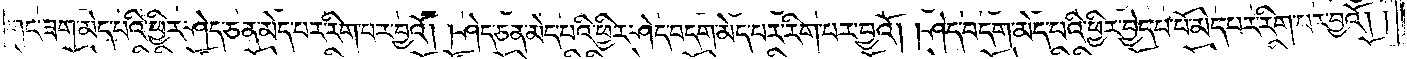གང་ཟག་མེད་པའི་ཕྱིར་ཤེད་ཅན་མེད་པར་རིག་པར་བྱའོ། །ཤེད་ཅན་མེད་པའི་ཕྱིར་ཤེད་བདག་མེད་པར་རིག་པར་བྱའོ། །ཤེད་བདག་མེད་པའི་ཕྱིར་བྱེད་པ་པོ་མེད་པར་རིག་པར་བྱའོ། །
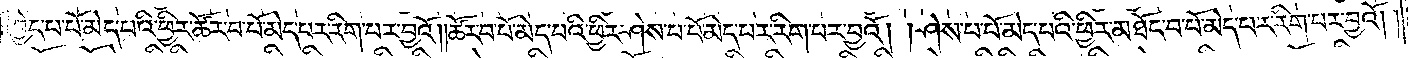བྱེད་པ་པོ་མེད་པའི་ཕྱིར་ཚོར་བ་པོ་མེད་པར་རིག་པར་བྱའོ། །ཚོར་བ་པོ་མེད་པའི་ཕྱིར་ཤེས་པ་པོ་མེད་པར་རིག་པར་བྱའོ། །ཤེས་པ་པོ་མེད་པའི་ཕྱིར་མཐོང་བ་པོ་མེད་པར་རིག་པར་བྱའོ། །
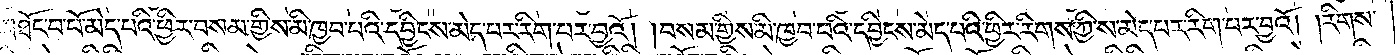མཐོང་བ་པོ་མེད་པའི་ཕྱིར་བསམ་གྱིས་མི་ཁྱབ་པའི་དབྱིངས་མེད་པར་རིག་པར་བྱའོ། །བསམ་གྱིས་མི་ཁྱབ་པའི་དབྱིངས་མེད་པའི་ཕྱིར་རིགས་ཀྱི་ས་མེད་པར་རིག་པར་བྱའོ། །རིགས་
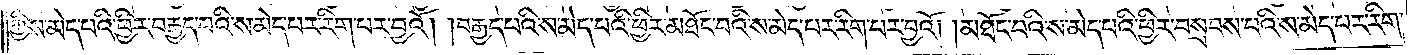ཀྱི་ས་མེད་པའི་ཕྱིར་བརྒྱད་པའི་ས་མེད་པར་རིག་པར་བྱའོ། །བརྒྱད་པའི་ས་མེད་པའི་ཕྱིར་མཐོང་བའི་ས་མེད་པར་རིག་པར་བྱའོ། །མཐོང་བའི་ས་མེད་པའི་ཕྱིར་བསྲབས་པའི་ས་མེད་པར་རིག་
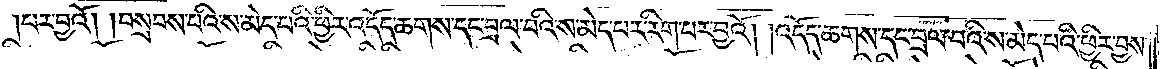པར་བྱའོ། །བསྲབས་པའི་ས་མེད་པའི་ཕྱིར་འདོད་ཆགས་དང་བྲལ་བའི་ས་མེད་པར་རིག་པར་བྱའོ། །འདོད་ཆགས་དང་བྲལ་བའི་ས་མེད་པའི་ཕྱིར་བྱས་
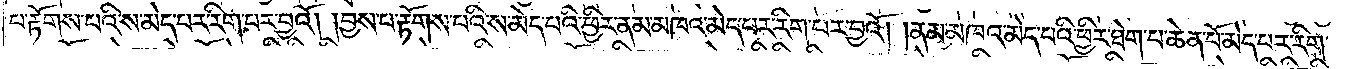པ་རྟོགས་པའི་ས་མེད་པར་རིག་པར་བྱའོ། །བྱས་པ་རྟོགས་པའི་ས་མེད་པའི་ཕྱིར་ནམ་མཁའ་མེད་པར་རིག་པར་བྱའོ། །ནམ་མཁའ་མེད་པའི་ཕྱིར་ཐེག་པ་ཆེན་པོ་མེད་པར་རིག་
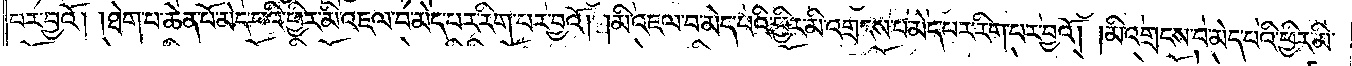པར་བྱའོ། །ཐེག་པ་ཆེན་པོ་མེད་པའི་ཕྱིར་མི་འཇལ་བ་མེད་པར་རིག་པར་བྱའོ། །མི་འཇལ་བ་མེད་པའི་ཕྱིར་མི་འགྲངས་པ་མེད་པར་རིག་པར་བྱའོ། །མི་འགྲངས་པ་མེད་པའི་ཕྱིར་མི་
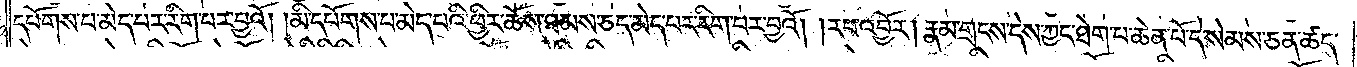དཔོགས་པ་མེད་པར་རིག་པར་བྱའོ། །མི་དཔོགས་པ་མེད་པའི་ཕྱིར་ཆོས་ཐམས་ཅད་མེད་པར་རིག་པར་བྱའོ། །རབ་འབྱོར། རྣམ་གྲངས་དེས་ཀྱང་ཐེག་པ་ཆེན་པོ་དེ་སེམས་ཅན་ཚད་
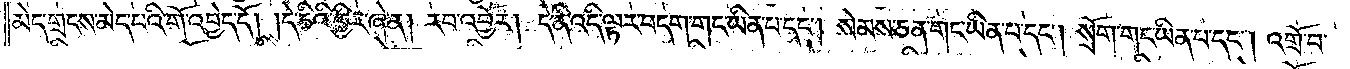མེད་གྲངས་མེད་པའི་གོ་འབྱེད་དོ། །དེ་ཅིའི་ཕྱིར་ཞེ་ན། རབ་འབྱོར། དེ་ནི་འདི་ལྟར་བདག་གང་ཡིན་པ་དང༌། སེམས་ཅན་གང་ཡིན་པ་དང༌། སྲེག་གང་ཡིན་པ་དང༌། འགྲོ་བ་
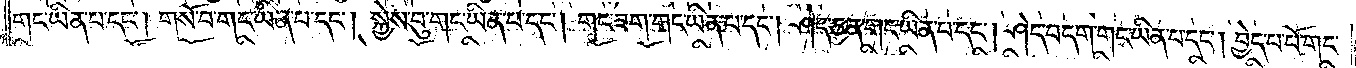གང་ཡིན་པ་དང༌། གསོ་བ་གང་ཡིན་པ་དང༌། སྐྱེས་བུ་གང་ཡིན་པ་དང༌། གང་ཟག་གང་ཡིན་པ་དང༌། ཤེད་ཅན་གང་ཡིན་པ་དང༌། ཤེད་བདག་གང་ཡིན་པ་དང༌། བྱེད་པ་པོ་གང་
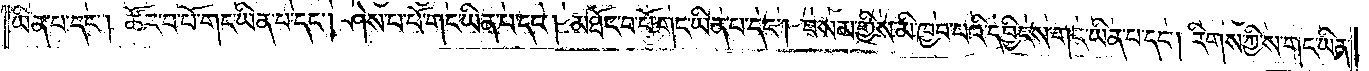ཡིན་པ་དང༌། ཚོར་བ་པོ་གང་ཡིན་པ་དང༌། ཤེས་པ་པོ་གང་ཡིན་པ་དང༌། མཐོང་བ་པོ་གང་ཡིན་པ་དང༌། བསམ་གྱིས་མི་ཁྱབ་པའི་དབྱིངས་གང་ཡིན་པ་དང༌། རིགས་ཀྱིས་གང་ཡིན་
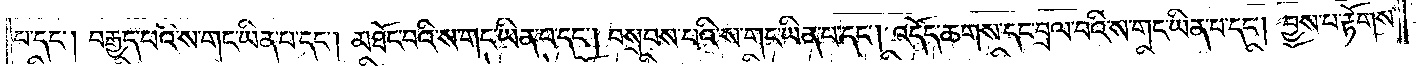པ་དང༌། བརྒྱད་པའི་ས་གང་ཡིན་པ་དང༌། མཐོང་བའི་ས་གང་ཡིན་པ་དང༌། བསྲབས་པའི་ས་གང་ཡིན་པ་དང༌། འདོད་ཆགས་དང་བྲལ་བའི་ས་གང་ཡིན་པ་དང༌། བྱས་པ་རྟོགས་
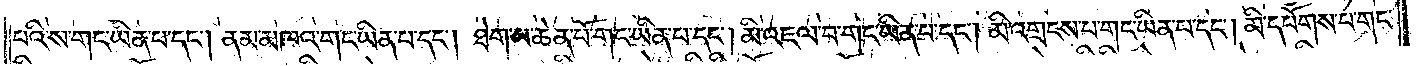པའི་ས་གང་ཡིན་པ་དང༌། ནམ་མཁའ་གང་ཡིན་པ་དང༌། ཐག་པ་ཆེན་པོ་གང་ཡིན་པ་དང༌། མི་འཇལ་བ་གང་ཡིན་པ་དང༌། མི་འགྲངས་པ་གང་ཡིན་པ་དང༌། མི་དཔོགས་པ་གང་
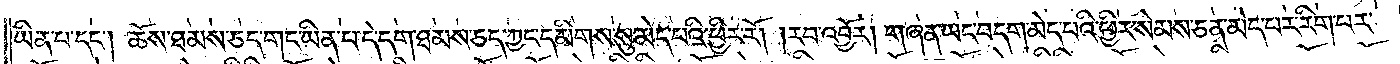ཡིན་པ་དང༌། ཆོས་ཐམས་ཅད་གང་ཡིན་པ་དེ་དག་ཐམས་ཅད་ཀྱང་དམིགས་སུ་མེད་པའི་ཕྱིར་རོ། །རབ་འབྱོར། གཞན་ཡང་བདག་མེད་པའི་ཕྱིར་སེམས་ཅན་མེད་པར་རིག་པར་
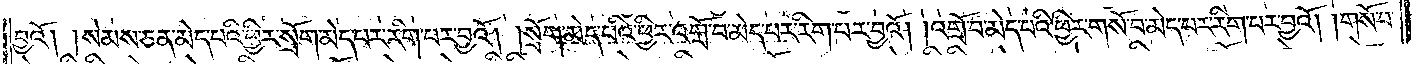བྱའོ། །སེམས་ཅན་མེད་པའི་ཕྱིར་སྲོག་མེད་པར་རིག་པར་བྱའོ། །སྲོག་མེད་པའི་ཕྱིར་འགྲོ་བ་མེད་པར་རིག་པར་བྱའོ། །འགྲོ་བ་མེད་པའི་ཕྱིར་གསོ་བ་མེད་པར་རིག་པར་བྱའོ། །གསོ་བ་
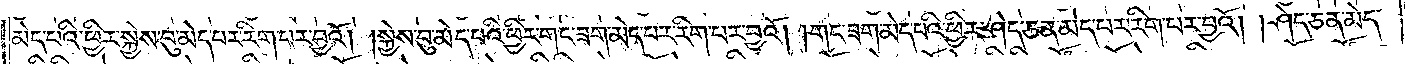མེད་པའི་ཕྱིར་སྐྱེས་བུ་མེད་པར་རིག་པར་བྱའོ། །སྐྱེས་བུ་མེད་པའི་ཕྱིར་གང་ཟག་མེད་པར་རིག་པར་བྱའོ། །གང་ཟག་མེད་པའི་ཕྱིར་ཤེད་ཅན་མེད་པར་རིག་པར་བྱའོ། །ཤེད་ཅན་མེད་
